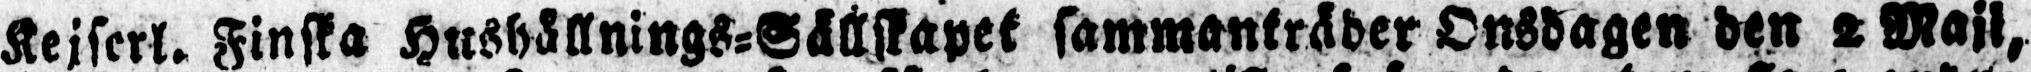Kejserl. Finska Hushållnings-Sällskapet sammanträder Onsdagen den 2 Maji,
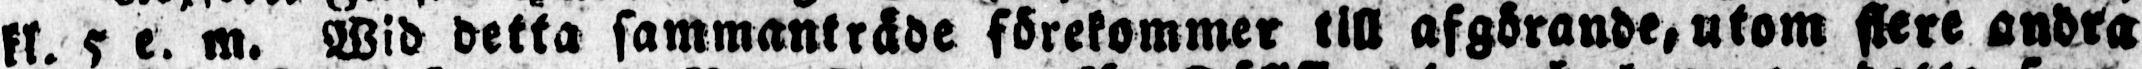kl. 5 e. m. Wid detta sammanträde förekommer till afgörande,utom flere andra
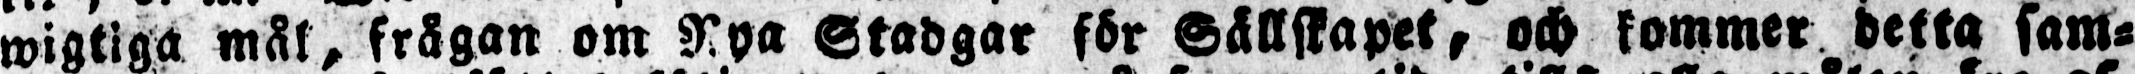wigtiga mål, frågan om Nya Stadgar för Sällskapet, och kommer detta sam-
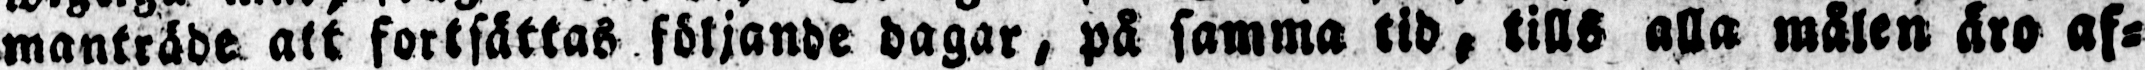manträde att fortsättas följande dagar, på samma tid, tills alla målen äro af-
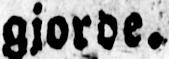gjorde.
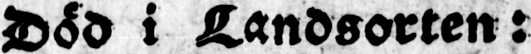Död i Landsorten:
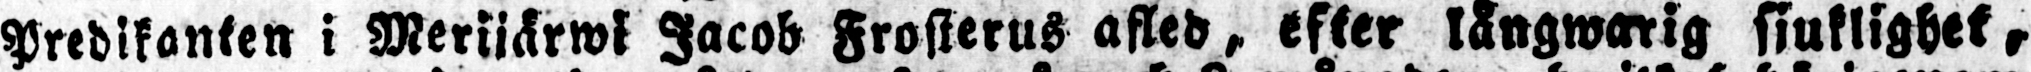Predikanten i Merijärwi Jacob Frosterus afled, efter långwarig sjuklighet,
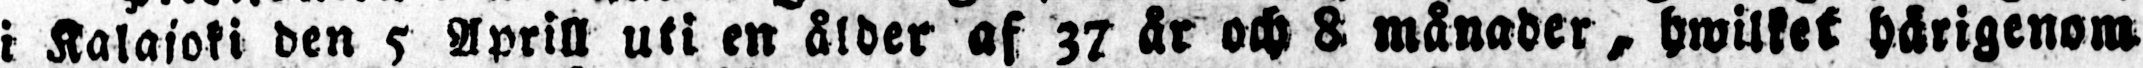i Kalajoki den 5 Aprill uti en ålder af 37 år och 8 månader, hwilket härigenom
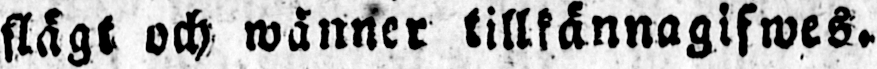slägt och wänner tillkännagifwes.
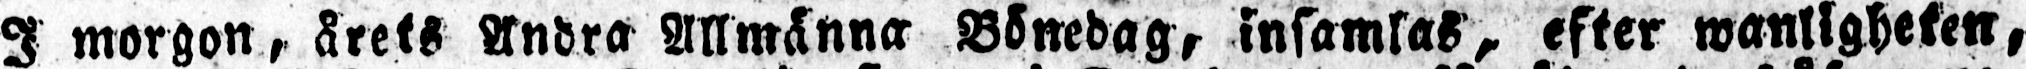I morgon, årets Andra Allmänna Bönedag, insamlas, efter wanligheten,
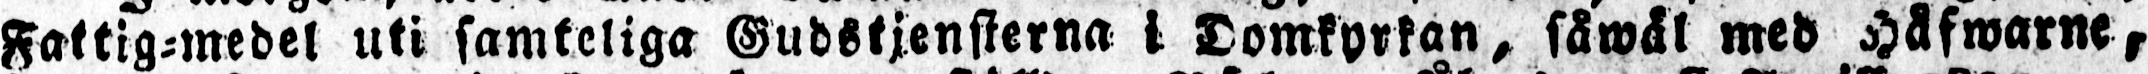ffattig-medel uti samteliga Gudstjensterna i Domkyrkan, såwäl med Håfwarne,
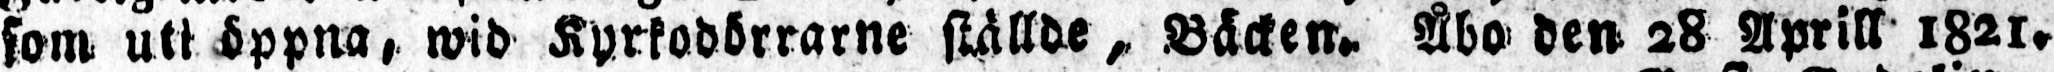som uti öppna, wid Kyrkodörrarne ställde, Bäcken. Åbo den 28 Aprill 1821.
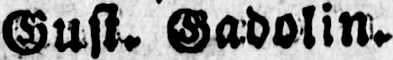Gust. Gadolin.
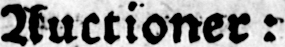Auctioner:
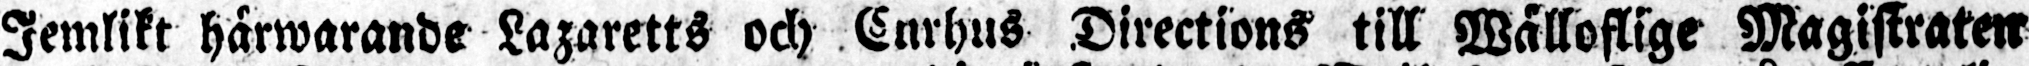Jemlikt härwarande Lazaretts och Curhus Directions till Wälloflige Magistraten
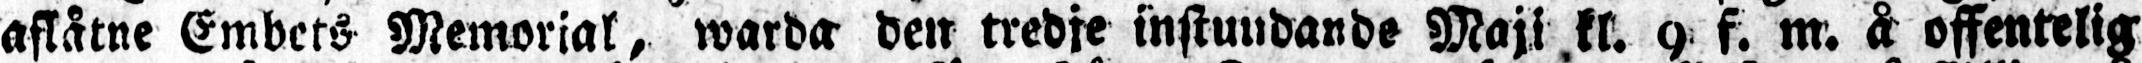aflåtne Embets Memorial, warda den tredje instundande Maji kl. 9 f. m. å offentelig
